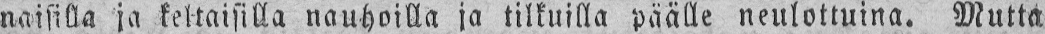naisilla ja keltaisilla nauhoilla ja tilkuilla päälle neulottuina. Mutta
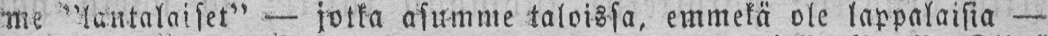me "lantalaiset" — jotka asumme taloissa, emmekä ole lappalaisia —
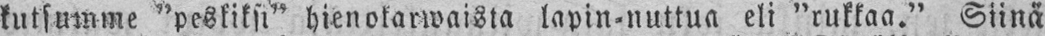kutsumme "peskiksi" hienokarwaista lapin-nuttua eli "rukkaa." Siinä
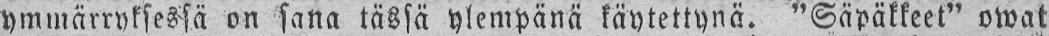ymmärryksessä on sana tässä ylempänä täytettynä. "Säpäkkeet" owat
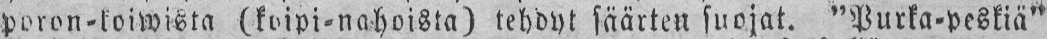poron-koiwista (koipi-nahoista) tehdyt säärten suojat. "Purka-peskiä"
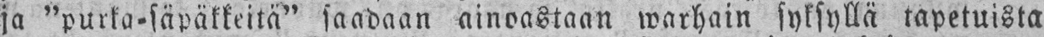ja "purka-säpäkkeitä" saadaan ainoastaan warhain syksyllä tapetuista
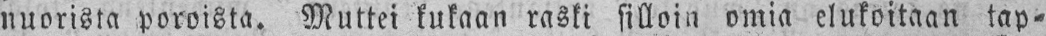nuorista poroista. Muttei kukaan raski silloin omia elukoitaan tap-
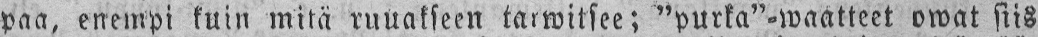paa, enempi kuin mitä ruuakseen tarwitsee; "purka"-waatteet owat siis
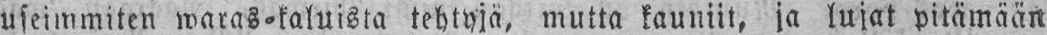useimmiten waras-kaluista tehtyjä, mutta kauniit, ja lujat pitämään
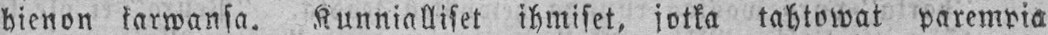hienon karwansa. Kunnialliset ihmiset, jotka tahtowat parempia
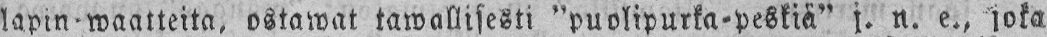lapin-waatteita, ostawat tawallisesti "puolipurka-peskiä" j. n. e., joka
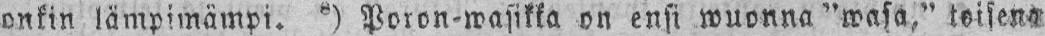onkin lämpimämpi. 8) Poron-wasikka on ensi wuonna "wafa," toisena
